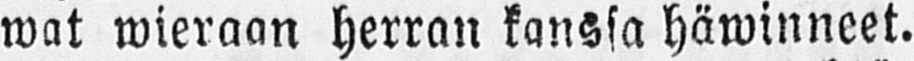wat wieraan herran kanssa häwinneet.
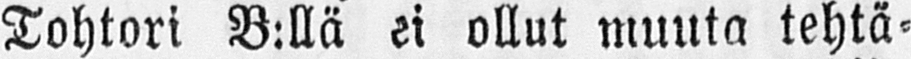Tohtori B:llä ei ollut muuta tehtä-
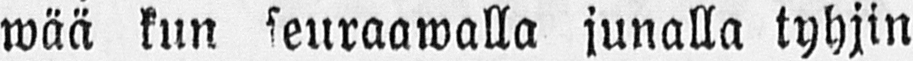wää kun seuraawalla junalla tyhjin
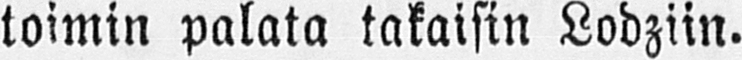toimin palata takaisin Lodziin.
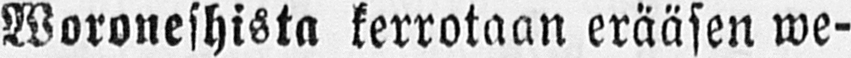Woroneshista kerrotaan erääsen we-
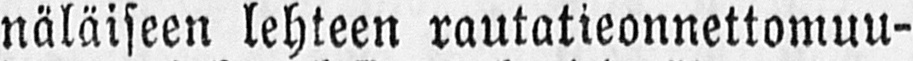näläiseen lehteen rautatieonnettomuu-
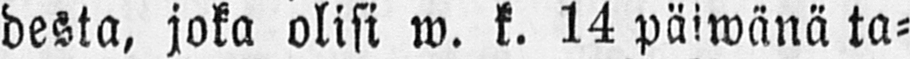desta, joka olisi w. k. 14 päiwänä ta-
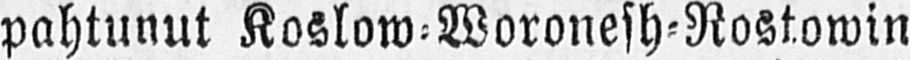pahtunut Koslow-Woronesh-Rostowin
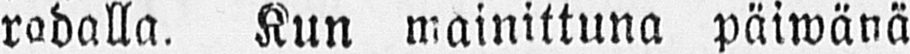radalla. Kun mainittuna päiwänä
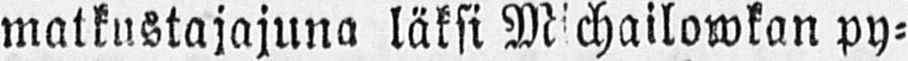matkustajajuna läksi Michailowkan py-
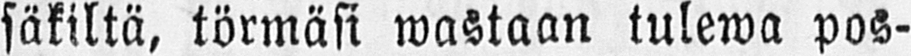säkiltä, törmäsi wastaan tulewa pos-
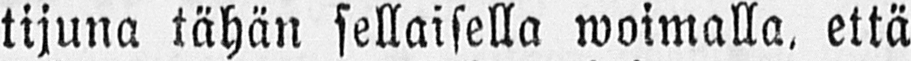tijuna tähän sellaisella woimalla. että
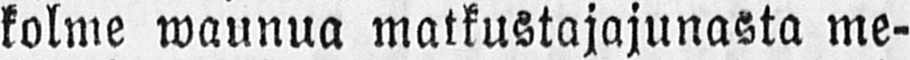kolme waunua matkustajajunasta me-
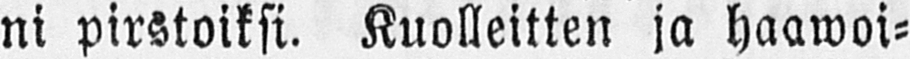ni pirstoiksi. Kuolleitten ja haawoi-
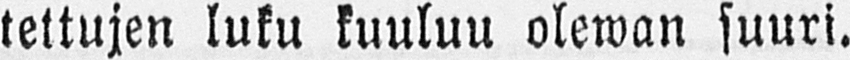tettujen luku kuuluu olewan suuri.
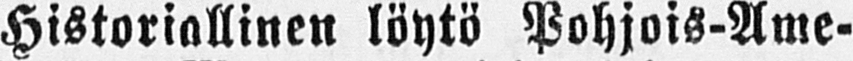Historiallinen löytö Pohjois-Ame-
